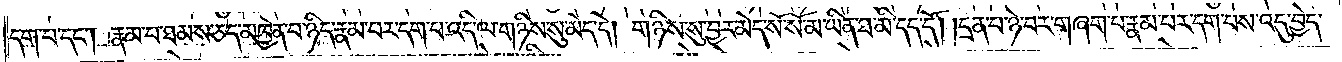དག་པ་དང༌། རྣམ་པ་ཐམས་ཅད་མཁྱེན་པ་ཉིད་རྣམ་པར་དག་པ་འདི་ལ་གཉིས་སུ་མེད་དེ། གཉིས་སུ་བྱར་མེད་སོ་སོ་མ་ཡིན་ཐ་མི་དད་དོ། །དྲན་པ་ཉེ་བར་གཞག་པ་རྣམ་པར་དག་པས་འདུ་བྱེད་
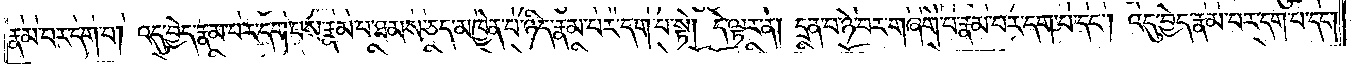རྣམ་པར་དག་པ། འདུ་བྱེད་རྣམ་པར་དག་པས་རྣམ་པ་ཐམས་ཅད་མཁྱེན་པ་ཉིད་རྣམ་པར་དག་པ་སྟེ། དེ་ལྟར་ན། དྲན་པ་ཉེ་བར་གཞག་པ་རྣམ་པར་དག་པ་དང༌། འདུ་བྱེད་རྣམ་པར་དག་པ་དང༌།
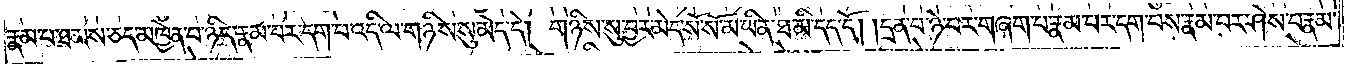རྣམ་པ་ཐམས་ཅད་མཁྱེན་པ་ཉིད་རྣམ་པར་དག་པ་འདི་ལ་གཉིས་སུ་མེད་དེ། གཉིས་སུ་བྱར་མེད་སོ་སོ་མ་ཡིན་ཐ་མི་དད་དོ། །དྲན་པ་ཉེ་བར་བཞག་པ་རྣམ་པར་དག་པས་རྣམ་པར་ཤེས་པ་རྣམ་
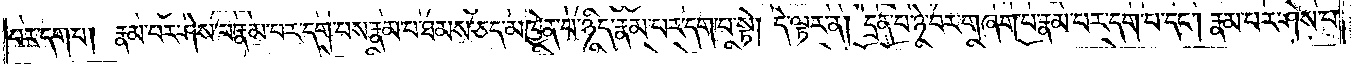པར་དག་པ། རྣམ་པར་ཤེས་པ་རྣམ་པར་དག་པས་རྣམ་པ་ཐམས་ཅད་མཁྱེན་པ་ཉིད་རྣམ་པར་དག་པ་སྟེ། དེ་ལྟར་ན། དྲན་པ་ཉེ་བར་གཞག་པ་རྣམ་པར་དག་པ་དང༌། རྣམ་པར་ཤེས་པ་
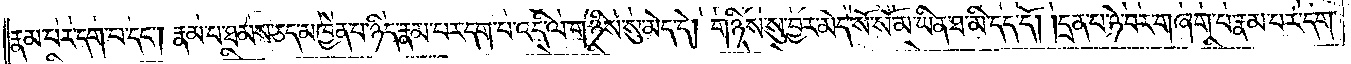རྣམ་པར་དག་པ་དང༌། རྣམ་པ་ཐམས་ཅད་མཁྱེན་པ་ཉིད་རྣམ་པར་དག་པ་འདི་ལ་གཉིས་སུ་མེད་དེ། གཉིས་སུ་བྱར་མེད་སོ་སོ་མ་ཡིན་ཐ་མི་དད་དོ། །དྲན་པ་ཉེ་བར་གཞག་པ་རྣམ་པར་དག་
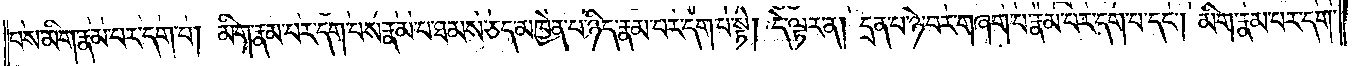པས་མིག་རྣམ་པར་དག་པ། མིག་རྣམ་པར་དག་པས་རྣམ་པ་ཐམས་ཅད་མཁྱེན་པ་ཉིད་རྣམ་པར་དག་པ་སྟེ། དེ་ལྟར་ན། དྲན་པ་ཉེ་བར་གཞག་པ་རྣམ་པར་དག་པ་དང༌། མིག་རྣམ་པར་དག་
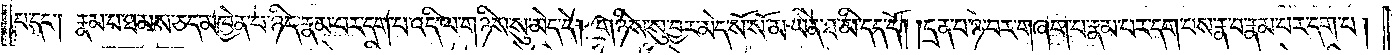པ་དང༌། རྣམ་པ་ཐམས་ཅད་མཁྱེན་པ་ཉིད་རྣམ་པར་དག་པ་འདི་ལ་གཉིས་སུ་མེད་དེ། གཉིས་སུ་བྱར་མེད་སོ་སོ་མ་ཡིན་ཐ་མི་དད་དོ། །དྲན་པ་ཉེ་བར་གཞག་པ་རྣམ་པར་དག་པས་རྣ་བ་རྣམ་པར་དག་པ།
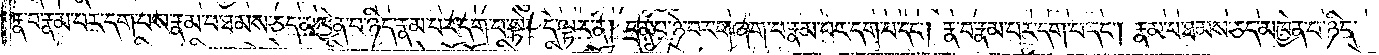རྣ་བ་རྣམ་པར་དག་པས་རྣམ་པ་ཐམས་ཅད་མཁྱེན་པ་ཉིད་རྣམ་པར་དག་པ་སྟེ། དེ་ལྟར་ན། དྲན་པ་ཉེ་བར་གཞག་པ་རྣམ་པར་དག་པ་དང༌། རྣ་བ་རྣམ་པར་དག་པ་དང༌། རྣམ་པ་ཐམས་ཅད་མཁྱེན་པ་ཉིད་
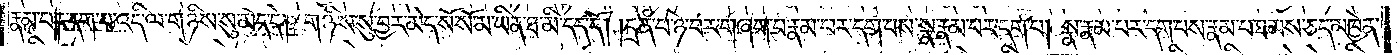རྣམ་པར་དག་པ་འདི་ལ་གཉིས་སུ་མེད་དེ། གཉིས་སུ་བྱར་མེད་སོ་སོ་མ་ཡིན་ཐ་མི་དད་དོ། །དྲན་པ་ཉེ་བར་གཞག་པ་རྣམ་པར་དག་པས་སྣ་རྣམ་པར་དག་པ། སྣ་རྣམ་པར་དག་པས་རྣམ་པ་ཐམས་ཅད་མཁྱེན་
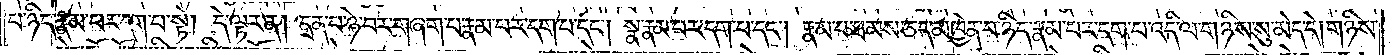པ་ཉིད་རྣམ་པར་དག་པ་སྟེ། དེ་ལྟར་ན། དྲན་པ་ཉེ་བར་གཞག་པ་རྣམ་པར་དག་པ་དང༌། སྣ་རྣམ་པར་དག་པ་དང༌། རྣམ་པ་ཐམས་ཅད་མཁྱེན་པ་ཉིད་རྣམ་པར་དག་པ་འདི་ལ་གཉིས་སུ་མེད་དེ། གཉིས་
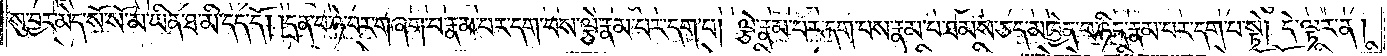སུ་བྱར་མེད་སོ་སོ་མ་ཡིན་ཐ་མི་དད་དོ། །དྲན་པ་ཉེ་བར་གཞག་པ་རྣམ་པར་དག་པས་ལྕེ་རྣམ་པར་དག་པ། ལྕེ་རྣམ་པར་དག་པས་རྣམ་པ་ཐམས་ཅད་མཁྱེན་པ་ཉིད་རྣམ་པར་དག་པ་སྟེ། དེ་ལྟར་ན།
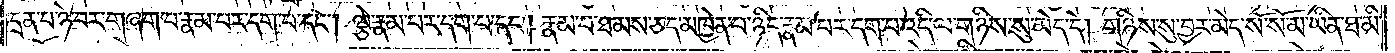དྲན་པ་ཉེ་བར་གཞག་པ་རྣམ་པར་དག་པ་དང༌། ལྕེ་རྣམ་པར་དག་པ་དང༌། རྣམ་པ་ཐམས་ཅད་མཁྱེན་པ་ཉིད་རྣམ་པར་དག་པ་འདི་ལ་གཉིས་སུ་མེད་དེ། གཉིས་སུ་བྱར་མེད་སོ་སོ་མ་ཡིན་ཐ་མི་
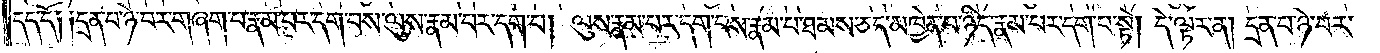དད་དོ༑ ༑དྲན་པ་ཉེ་བར་གཞག་པ་རྣམ་པར་དག་པས་ལུས་རྣམ་པར་དག་པ། ལུས་རྣམ་པར་དག་པས་རྣམ་པ་ཐམས་ཅད་མཁྱེན་པ་ཉིད་རྣམ་པར་དག་པ་སྟེ། དེ་ལྟར་ན། དྲན་པ་ཉེ་བར་
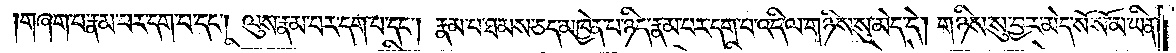གཞག་པ་རྣམ་པར་དག་པ་དང༌། ལུས་རྣམ་པར་དག་པ་དང༌། རྣམ་པ་ཐམས་ཅད་མཁྱེན་པ་ཉིད་རྣམ་པར་དག་པ་འདི་ལ་གཉིས་སུ་མེད་དེ། གཉིས་སུ་བྱར་མེད་སོ་སོ་མ་ཡིན་
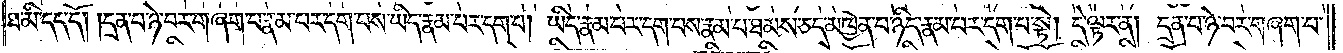ཐ་མི་དད་དོ། །དྲན་པ་ཉེ་བར་གཞག་པ་རྣམ་པར་དག་པས་ཡིད་རྣམ་པར་དག་པ། ཡིད་རྣམ་པར་དག་པས་རྣམ་པ་ཐམས་ཅད་མཁྱེན་པ་ཉིད་རྣམ་པར་དག་པ་སྟེ། དེ་ལྟར་ན། དྲན་པ་ཉེ་བར་གཞག་པ་
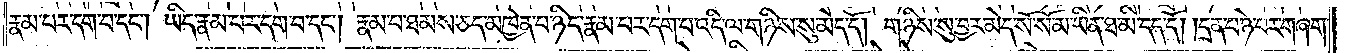རྣམ་པར་དག་པ་དང༌། ཡིད་རྣམ་པར་དག་པ་དང༌། རྣམ་པ་ཐམས་ཅད་མཁྱེན་པ་ཉིད་རྣམ་པར་དག་པ་འདི་ལ་གཉིས་སུ་མེད་དེ། གཉིས་སུ་བྱར་མེད་སོ་སོ་མ་ཡིན་ཐ་མི་དད་དོ། །དྲན་པ་ཉེ་བར་གཞག་
